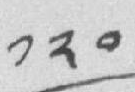༡༢༠
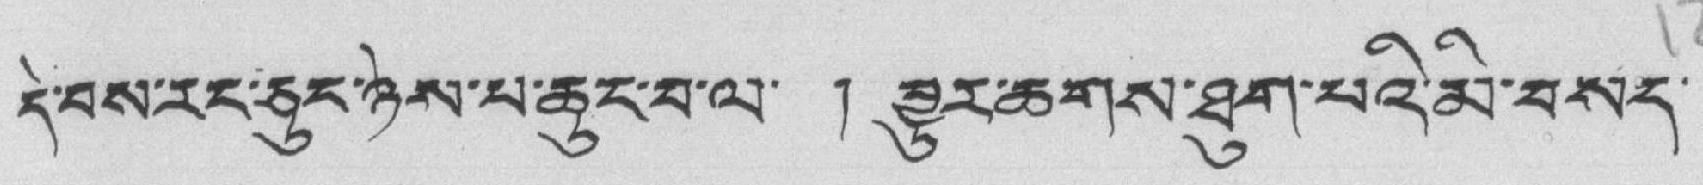དེ་བས་རང་ཅུང་ཉེས་པ་ཆུང་བ་ལ་ ། བྱུར་ཆགས་ཐུག་པའི་མི་བསད་
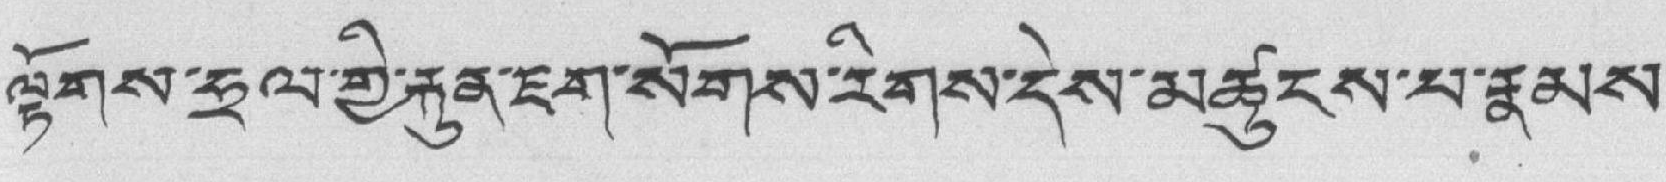ལྟོགས་ཧྲལ་གྱི་རྐུན་ཇག་སོགས་རིགས་དེས་མཚུངས་པ་རྣམས་
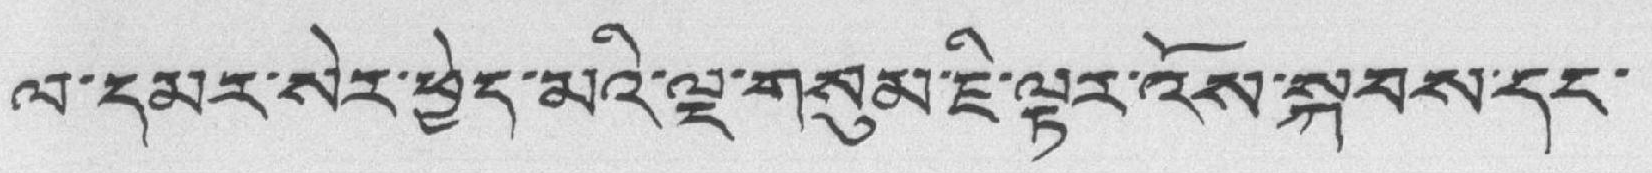ལ་དམར་སེར་ཕྱེད་མའི་ལྔ་གསུམ་ཇི་ལྟར་འོས་སྐབས་དང་
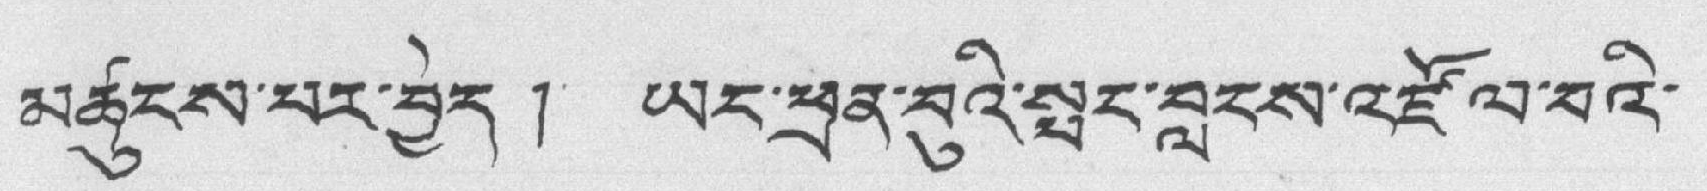མཚུངས་པར་བྱེད ། ཡང་ཕྲན་བུའི་སྤང་བླངས་འཛོལ་བའི་
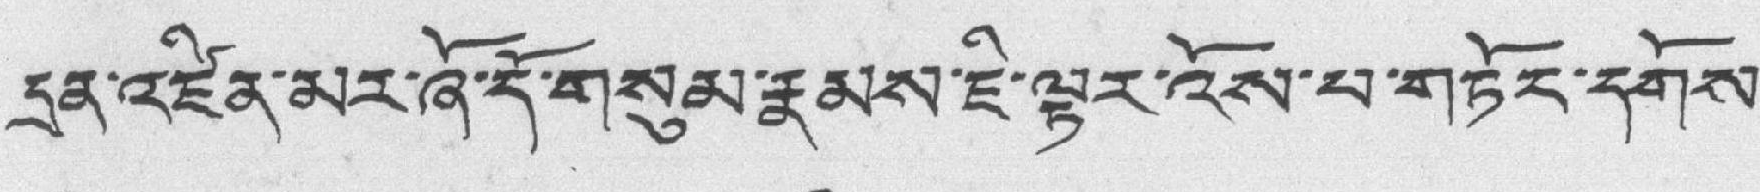དྲན་འཛིན་མར་ཞོ་དོ་གསུམ་རྣམས་ཇི་ལྟར་འོས་པ་གཏོང་དགོས་
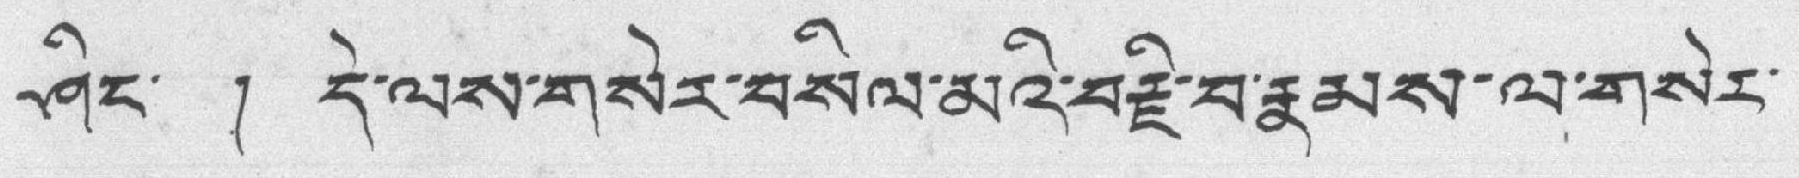ཤིང་ ། དེ་ལས་གསེར་བསིལ་མའི་བརྗི་བ་རྣམས་ལ་གསེར་
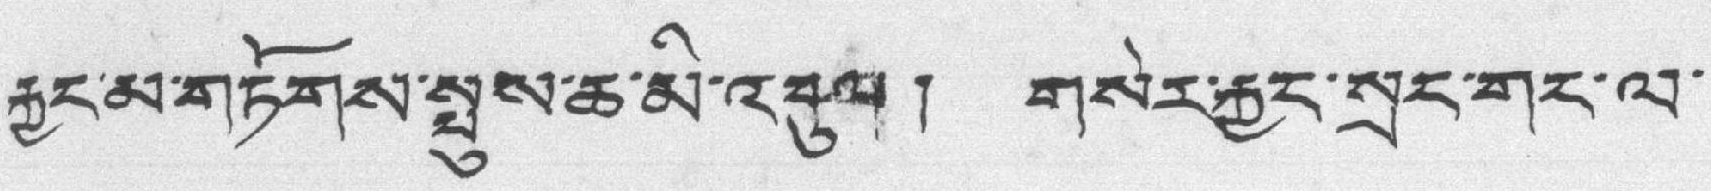རྐྱང་མ་གཏོགས་སྤུས་ཆ་མི་འབུལ། གསེར་རྐྱང་སྲང་གང་ལ་
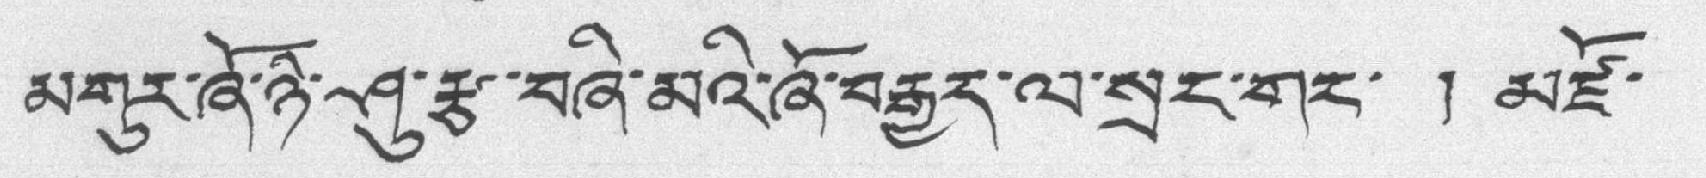མགུར་ཞོ་ཉི་ཤུ་རྩ་བཞི་མའི་ཞོ་བརྒྱད་ལ་སྲང་གང་ ། མཛོ་
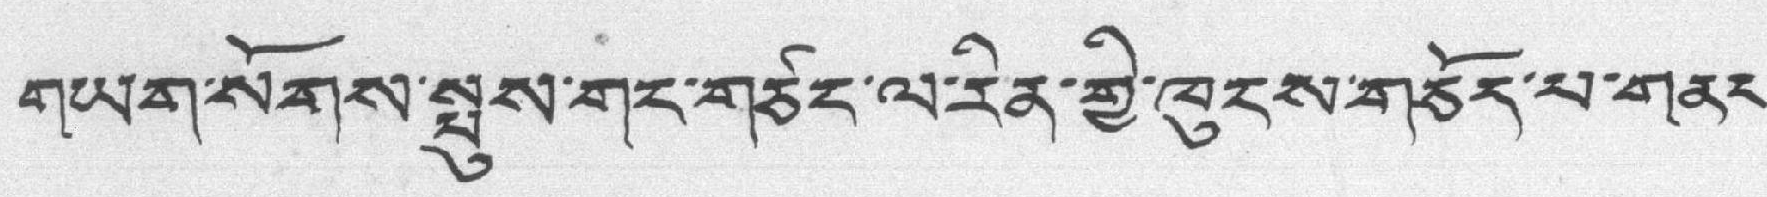གཡག་སོགས་སྤུས་གང་གཙང་ལ་རིན་གྱི་ཁུངས་གཅོད་པ་གནང་
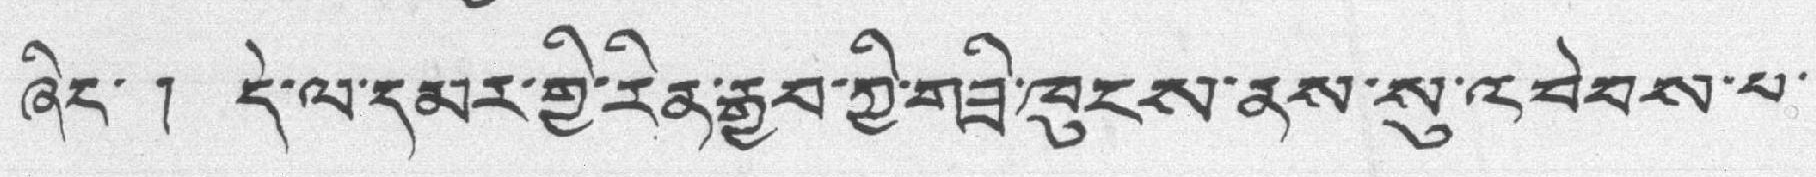ཞིང་ ། དེ་ལ་དམར་གྱི་རིན་རྒྱབ་ཀྱི་གཟི་ཁུངས་ནས་སུ་འབེབས་པ་
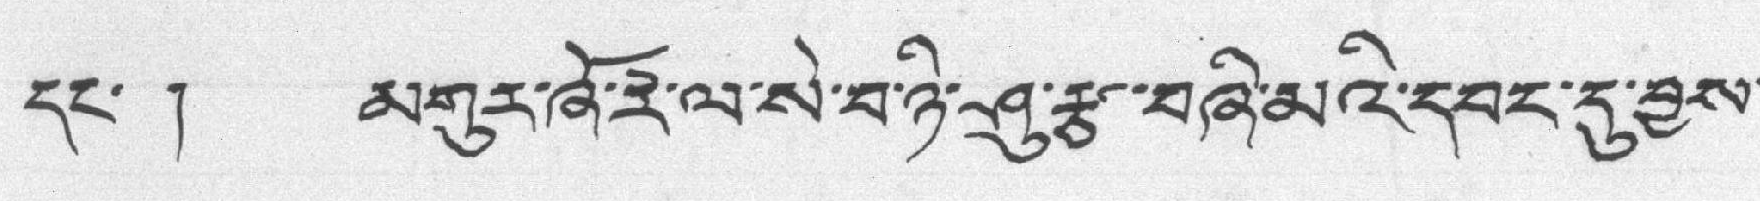དང་ ། མགུར་ཞོ་རེ་ལ་སེ་བ་ཉི་ཤུ་རྩ་བཞི་མིའི་དབང་དུ་བྱས་
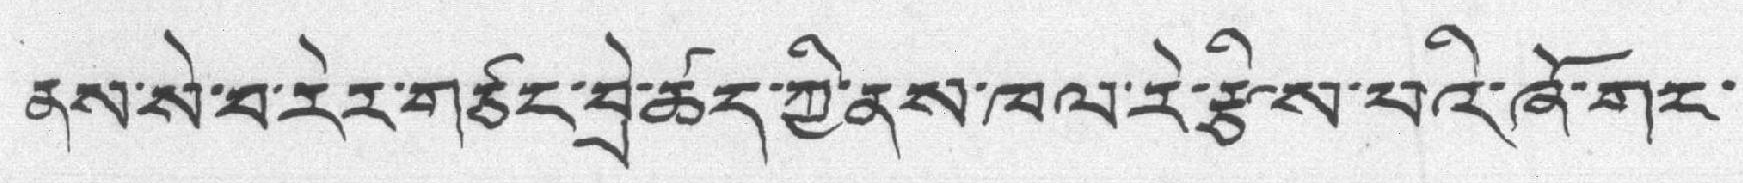ནས་སེ་བ་རེར་གཙང་བྲེ་ཚད་ཀྱི་ནས་ཁལ་རེ་རྩིས་པའི་ཞོ་གང་
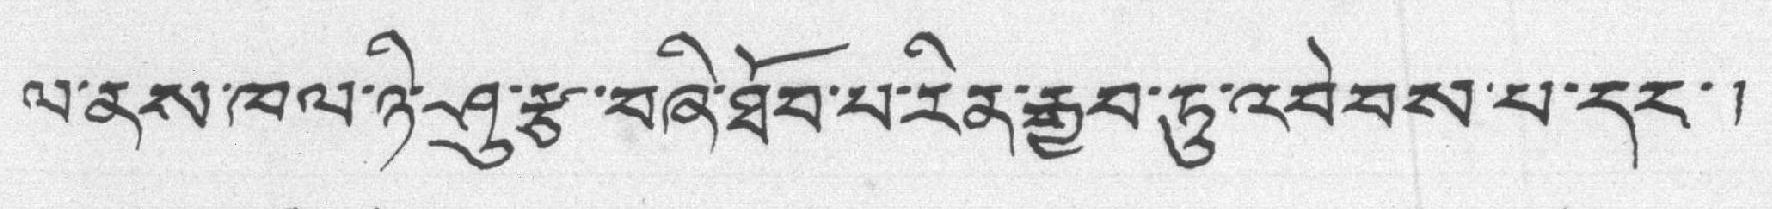ལ་ནས་ཁལ་ཉི་ཤུ་རྩ་བཞི་ཐོབ་པ་རིན་རྒྱབ་ཏུ་འབེབས་པ་དང་།
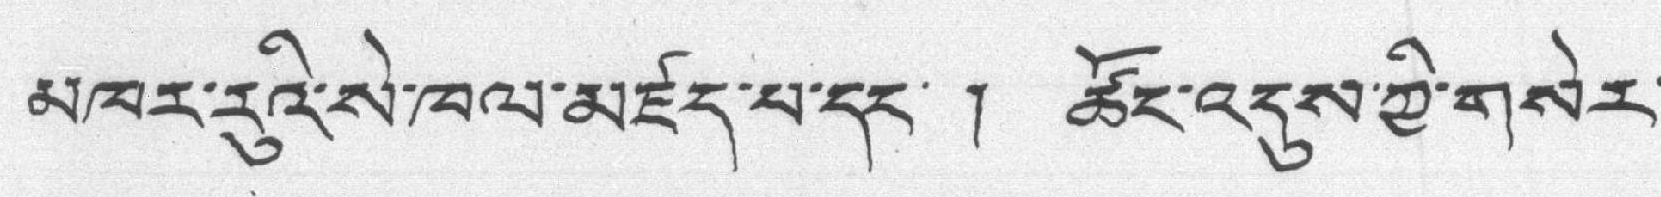མཁར་རུའི་སེ་ཁལ་མཛད་པ་དང་ ། ཚོང་འདུས་ཀྱི་གསེར་
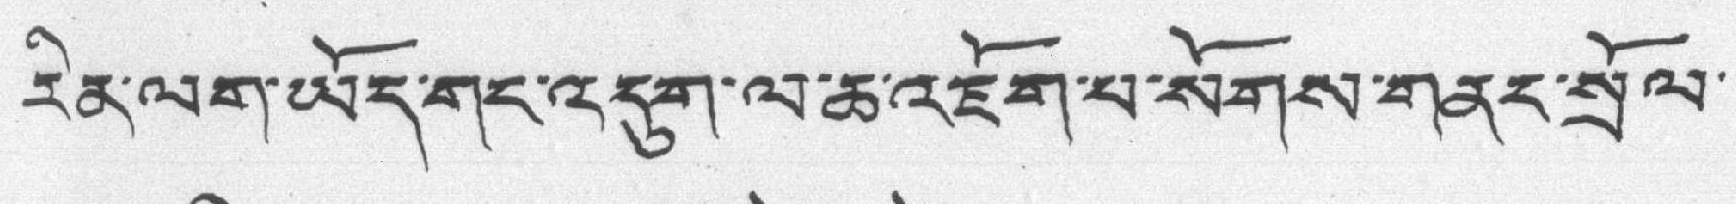རིན་ལག་ཡོད་གང་འདུག་ལ་ཆ་འཇོག་པ་སོགས་གནང་སྲོལ་
